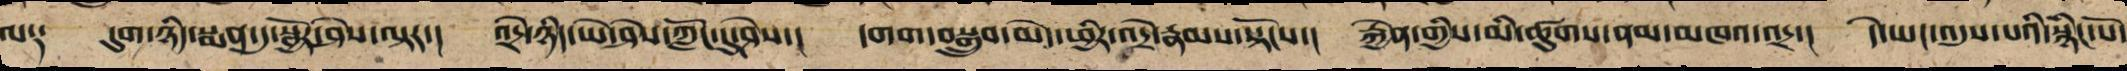ལ༑ དུག་ཉིད་སྨན་དུ་སྦྱོར་ཤེས་ལྟར་། འདྲེ་ཉིད་ཡེ་ཤེས་ཀློང་དུ་ཤེས་། དགག་བསྒྲུབ་མེད་ཕྱིར་འདྲེ་རྣམས་སྟོངས་། རྐྱེན་གྱིས་མི་ཚུགས་ནམ་མཁའ་འདྲ་། དེ་ཡང་འདུས་པའི་སྙིང་པོ་
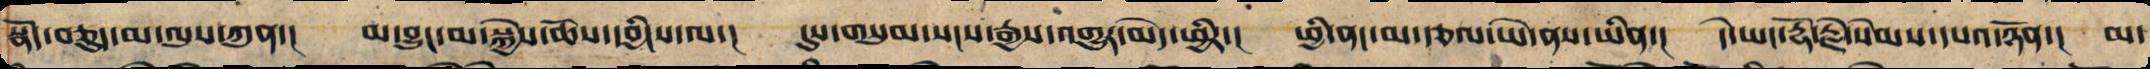སྣོད་བཅུད་མ་ལུས་ཀུན་། མ་བྱུང་མ་སྐྱེས་ཆོས་དབྱིངས་ལ་། དུས་གསུམ་སངས་རྒྱས་འགྱུར་མེད་ཕྱིར་། ཕྱི་ནང་མ་བཙལ་ཡེ་ནས་ཡིན་། ད་ཡང་རྡོ་རྗེ་སེམས་དཔའ་ཉོན་། མ་
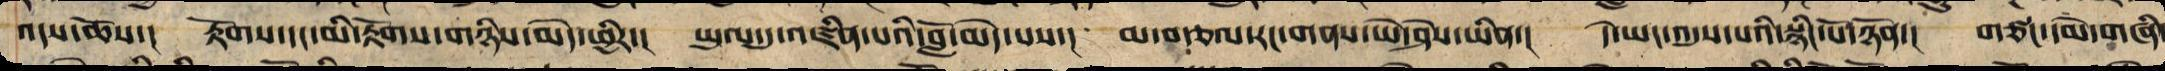འདས་ཆོས་། རྟོགས་དང་མ་རྟོགས་གཉིས་མེད་ཕྱིར་། ཡུལ་དུ་འཛིན་པའི་བློ་མེད་པས་། མ་བཙལ་རང་གནས་ཡེ་ཤེས་ཡིན་། ད་ཡང་འདུས་པའི་སྙིང་པོ་ཉོན་། གཙང་དམེ་གཞི་
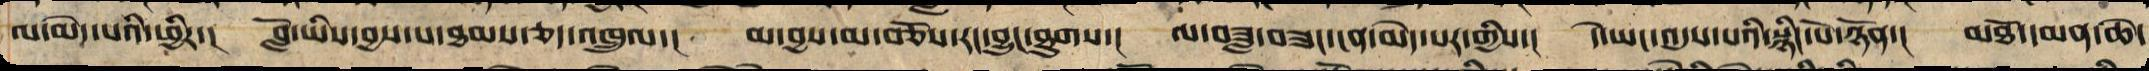ལ་མེད་པའི་ཕྱིར་། བློ་ཡིས་བྱས་པ་ཐམས་ཅད་འཁྲུལ་། མ་བྱས་མ་བཅོས་རང་བྱུང་ཐུགས་། ལ་བཟླ་བཟང་ངན་མེད་པར་གྱིས་། ད་ཡང་འདུས་པའི་སྙིང་པོ་ཉོན་། མཐོ་དམན་ཆེ་
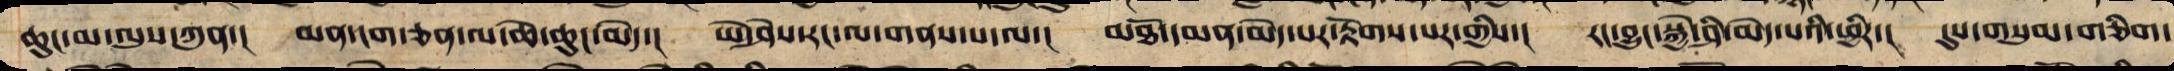ཆུང་མ་ལུས་ཀུན་། མན་ངག་ཅན་ལ་ཆེ་ཆུང་མེད་། ཡེ་ཤེས་རང་ལ་གནས་པ་ལ་། མཐོ་དམན་མེད་པར་རྟོགས་པར་གྱིས་། རང་བྱུང་སྐྱེ་ཤི་མེད་པའི་ཕྱིར་། དུས་གསུམ་གཅིག་
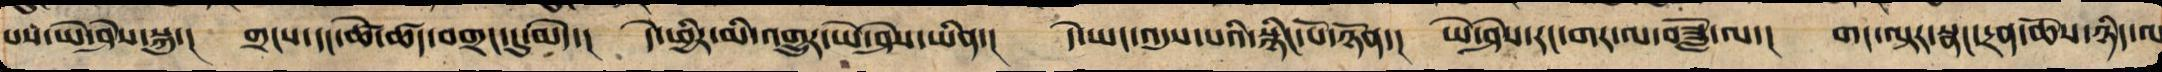པས་ཡེ་ཤེས་སྐུ་། གྲངས་དང་ཚེ་ཚད་བགྲང་དུ་མེད་། དེ་ཕྱིར་མི་འགྱུར་ཡེ་ཤེས་ཡིན་། དེ་ཡང་འདུས་པའི་སྙིང་པོ་ཉོན་། ཡེ་ཤེས་རང་ཤར་ལ་ཟློ་ལ་། གང་ལྟར་སྣང་དྲན་ཆོས་ཉིད་ལ
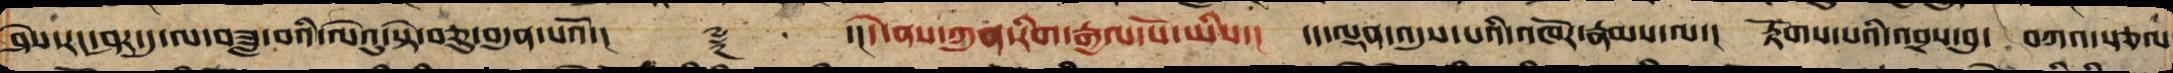ཤེས་རང་ཤར་དུ་ལ་བཟླ་བའི་ལེའུ་སྟེ་བཅུ་བདུན་པའོ་།། ༈ ་།དེ་ནས་ཀུན་རིག་རྒྱལ་པོ་ཡིས་། དད་ལྡན་འདུས་པའི་འཁོར་རྣམས་ལ་། རྟོགས་པའི་འབྲས་བུ་བཀའ་སྩལ་
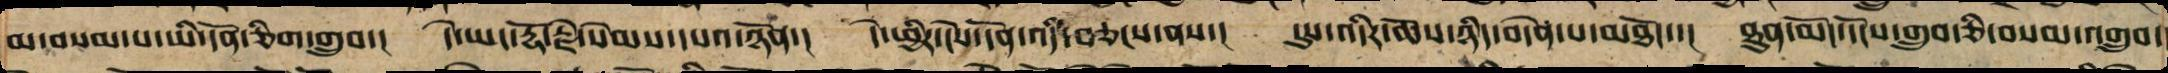མ་བསམས་པ་ཡི་དོན་ཅིག་འགྲུབ་། དེ་ཡང་རྡོ་རྗེ་སེམས་དཔའ་ཉོན་། དེ་ཕྱིར་ངེས་དོན་འདི་བཅངས་ན་། དུས་འདིར་ཆོས་ཉིད་བདེན་པ་མཐོང་་། ཐུན་མོང་དངོས་གྲུབ་ཅི་བསམ་འགྲུབ་
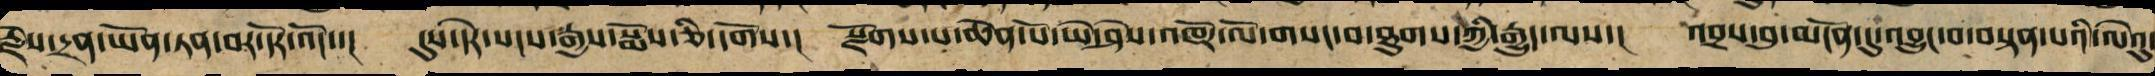རྗེས་དྲན་ཡོན་ཏན་བར་དོར་འོང་་། དུས་དེར་སངས་རྒྱས་སྨོས་ཅི་དགོས་། སྫོགས་པ་ཆེན་པོ་ཡེ་ཤེས་འཁོར་ལོ་གསང་བ་ཐུགས་ཀྱི་རྒྱུད་ལས་། འབྲས་བུ་མངོན་དུ་འབྱུང་བར་བསྟན་པའི་ལེའུ་
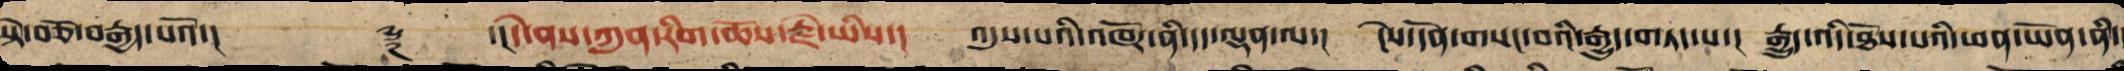སྟེ་བཅོ་བརྒྱད་པའོ་།། ༈ ་།དེ་ནས་ཀུན་རིག་ཆོས་རྗེ་ཡིས་། འདུས་པའི་འཁོར་ནི་དད་ལྡན་ལ་། ངེས་དོན་གསང་བའི་རྒྱུད་གཏད་པ་། རྒྱུད་འདི་ཐོས་པའི་ཕན་ཡོན་ནི་
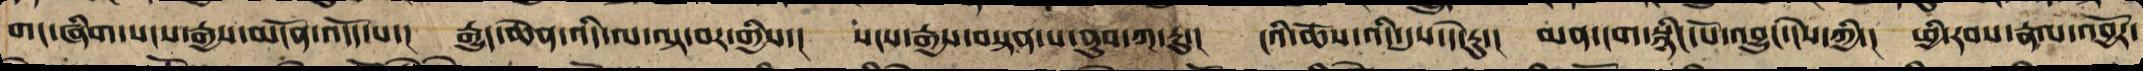གང་ཞིག་སངས་རྒྱས་དངོས་འདོད་པ་། རྒྱུད་ཆེན་འདི་ལ་བལྟ་བར་གྱིས་། སངས་རྒྱས་བསྟན་པ་ནུབ་ཀ་རུ་། ང་ཡི་ཆོས་འདི་དུས་དེ་རུ་། མན་ངག་སྙིང་པོ་འབྱུང་ངེས་ཀྱི་། ཕྱི་རབས་རྣལ་འབྱོར་
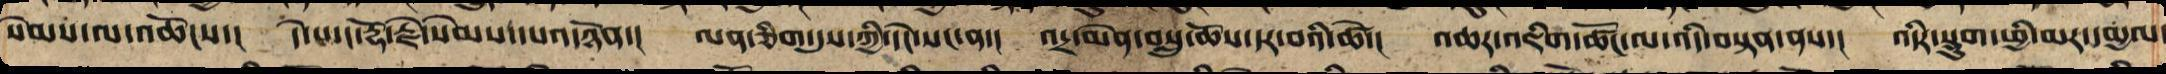སེམས་ལ་འཆོངས་། ད་ཡང་རྡོ་རྗེ་སེམས་དཔའ་ཉོན་། ལན་ཅིག་དུས་ཀྱི་དེང་སང་ན་། འདྲ་མིན་བསླུ་ཆོས་དར་བའི་ཚེ་། འཕྱར་འཇིག་ཚོང་ལ་འདི་བསྟན་ན་། འདིར་སྡུག་ཕྱི་མར་དམྱལ་
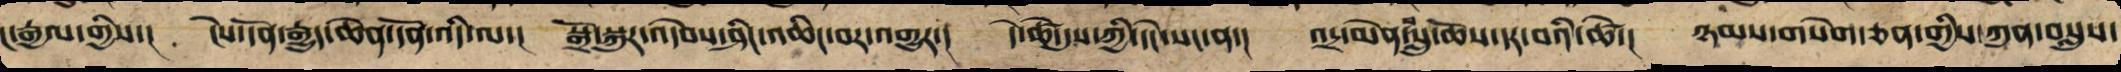ང་རྒྱལ་གྱིས་། ངེས་དོན་རྒྱུད་ཆེན་དོན་འདི་ལ་། སྒྲོ་སྐུར་འདེབས་ཤིང་འཆིང་བར་འགྱུར་། དེ་ཚེ་དུས་ཀྱི་དེང་སང་ན་། འདྲ་མིན་བསླུ་ཆོས་དར་བའི་ཚེ་། ཁ་གསག་ཅན་གྱིས་ཀུན་བསླུས་
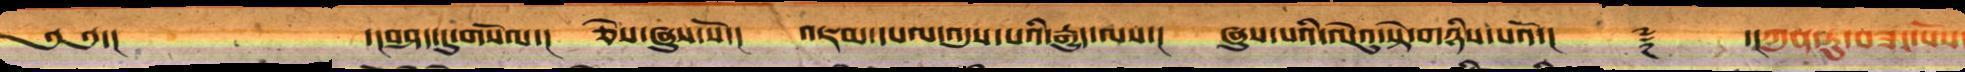༄༅་། ་།བཤད་དུ་གསོལ་། ཞེས་ཞུས་སོ་། འཇམ་དཔལ་འདུས་པའི་རྒྱུད་ལས་། ཞུས་པའི་ལེའུ་སྟེ་གཉིས་པའོ།་། ༈ །་།ཀུན་ཏུ་བཟང་པོས
